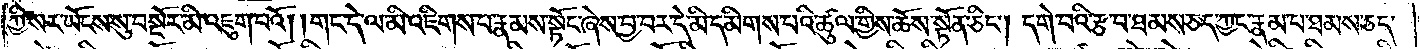ཀྱི་སར་ཡོངས་སུ་བསྔོར་མི་འཇུག་པའོ། །གང་དེ་ལ་མི་འཇིགས་པ་རྣམས་སྟོང་ཞེས་བྱ་བར་དེ་མི་དམིགས་པའི་ཚུལ་གྱིས་ཆོས་སྟོན་ཅིང༌། དགེ་བའི་རྩ་བ་ཐམས་ཅད་ཀྱང་རྣམ་པ་ཐམས་ཅད་
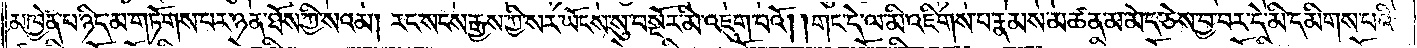མཁྱེན་པ་ཉིད་མ་གཏོགས་པར་ཉན་ཐོས་ཀྱི་སའམ། རང་སངས་རྒྱས་ཀྱི་སར་ཡོངས་སུ་བསྔོར་མི་འཇུག་པའོ། །གང་དེ་ལ་མི་འཇིགས་པ་རྣམས་མཚན་མ་མེད་ཅེས་བྱ་བར་དེ་མི་དམིགས་པའི་
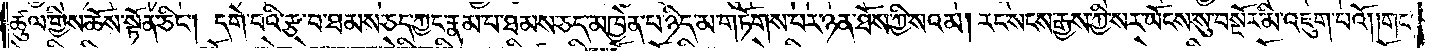ཚུལ་གྱིས་ཆོས་སྟོན་ཅིང༌། དགེ་བའི་རྩ་བ་ཐམས་ཅད་ཀྱང་རྣམ་པ་ཐམས་ཅད་མཁྱེན་པ་ཉིད་མ་གཏོགས་པར་ཉན་ཐོས་ཀྱི་སའམ། རང་སངས་རྒྱས་ཀྱི་སར་ཡོངས་སུ་བསྔོར་མི་འཇུག་པའོ། །གང་
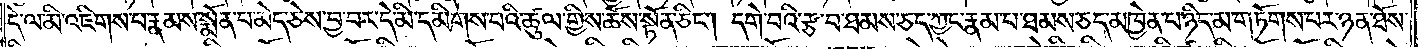དེ་ལ་མི་འཇིགས་པ་རྣམས་སྨོན་པ་མེད་ཅེས་བྱ་བར་དེ་མི་དམིགས་པའི་ཚུལ་གྱིས་ཆོས་སྟོན་ཅིང༌། དགེ་བའི་རྩ་བ་ཐམས་ཅད་ཀྱང་རྣམ་པ་ཐམས་ཅད་མཁྱེན་པ་ཉིད་མ་གཏོགས་པར་ཉན་ཐོས་
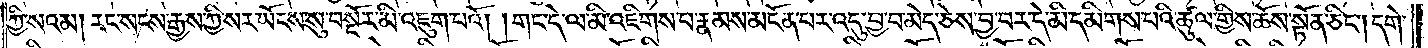ཀྱི་སའམ། རང་སངས་རྒྱས་ཀྱི་སར་ཡོངས་སུ་བསྔོར་མི་འཇུག་པའོ། །གང་དེ་ལ་མི་འཇིགས་པ་རྣམས་མངོན་པར་འདུ་བྱ་བ་མེད་ཅེས་བྱ་བར་དེ་མི་དམིགས་པའི་ཚུལ་གྱིས་ཆོས་སྟོན་ཅིང༌། དགེ་
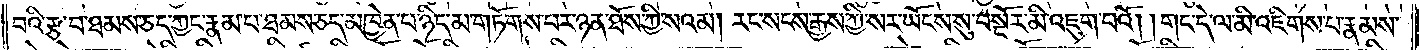བའི་རྩ་བ་ཐམས་ཅད་ཀྱང་རྣམ་པ་ཐམས་ཅད་མཁྱེན་པ་ཉིད་མ་གཏོགས་པར་ཉན་ཐོས་ཀྱི་སའམ། རང་སངས་རྒྱས་ཀྱི་སར་ཡོངས་སུ་བསྔོར་མི་འཇུག་པའོ། །གང་དེ་ལ་མི་འཇིགས་པ་རྣམས་
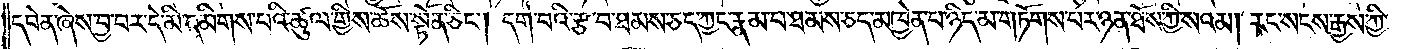དབེན་ཞེས་བྱ་བར་དེ་མི་དམིགས་པའི་ཚུལ་གྱིས་ཆོས་སྟོན་ཅིང༌། དགེ་བའི་རྩ་བ་ཐམས་ཅད་ཀྱང་རྣམ་པ་ཐམས་ཅད་མཁྱེན་པ་ཉིད་མ་གཏོགས་པར་ཉན་ཐོས་ཀྱི་སའམ། རང་སངས་རྒྱས་ཀྱི་
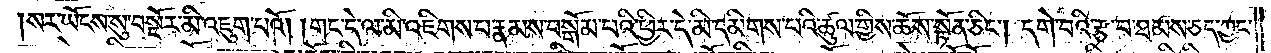སར་ཡོངས་སུ་བསྔོར་མི་འཇུག་པའོ། །གང་དེ་ལ་མི་འཇིགས་པ་རྣམས་བསྒོམ་པའི་ཕྱིར་དེ་མི་དམིགས་པའི་ཚུལ་གྱིས་ཆོས་སྟོན་ཅིང༌། དགེ་བའི་རྩ་བ་ཐམས་ཅད་ཀྱང་
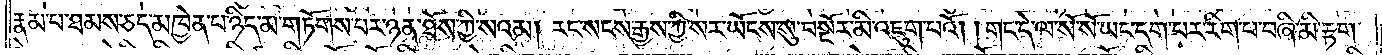རྣམ་པ་ཐམས་ཅད་མཁྱེན་པ་ཉིད་མ་གཏོགས་པར་ཉན་ཐོས་ཀྱི་སའམ། རང་སངས་རྒྱས་ཀྱི་སར་ཡོངས་སུ་བསྔོར་མི་འཇུག་པའོ། །གང་དེ་ལ་སོ་སོ་ཡང་དག་པར་རིག་པ་བཞི་མི་རྟག་
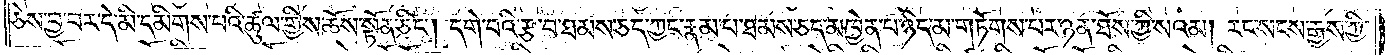ཅེས་བྱ་བར་དེ་མི་དམིགས་པའི་ཚུལ་གྱིས་ཆོས་སྟོན་ཅིང༌། དགེ་བའི་རྩ་བ་ཐམས་ཅད་ཀྱང་རྣམ་པ་ཐམས་ཅད་མཁྱེན་པ་ཉིད་མ་གཏོགས་པར་ཉན་ཐོས་ཀྱི་སའམ། རང་སངས་རྒྱས་ཀྱི་
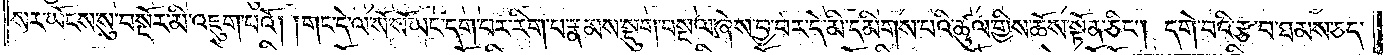སར་ཡོངས་སུ་བསྔོར་མི་འཇུག་པའོ། །གང་དེ་ལ་སོ་སོ་ཡང་དག་པར་རིག་པ་རྣམས་སྡུག་བསྔལ་ཞེས་བྱ་བར་དེ་མི་དམིགས་པའི་ཚུལ་གྱིས་ཆོས་སྟོན་ཅིང༌། དགེ་བའི་རྩ་བ་ཐམས་ཅད་
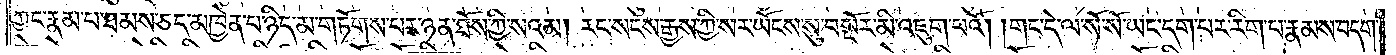ཀྱང་རྣམ་པ་ཐམས་ཅད་མཁྱེན་པ་ཉིད་མ་གཏོགས་པར་ཉན་ཐོས་ཀྱི་སའམ། རང་སངས་རྒྱས་ཀྱི་སར་ཡོངས་སུ་བསྔོར་མི་འཇུག་པའོ། །གང་དེ་ལ་སོ་སོ་ཡང་དག་པར་རིག་པ་རྣམས་བདག་
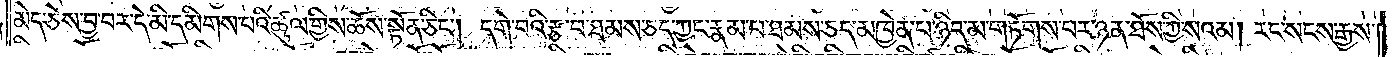མེད་ཅེས་བྱ་བར་དེ་མི་དམིགས་པའི་ཚུལ་གྱིས་ཆོས་སྟོན་ཅིང༌། དགེ་བའི་རྩ་བ་ཐམས་ཅད་ཀྱང་རྣམ་པ་ཐམས་ཅད་མཁྱེན་པ་ཉིད་མ་གཏོགས་པར་ཉན་ཐོས་ཀྱི་སའམ། རང་སངས་རྒྱས་
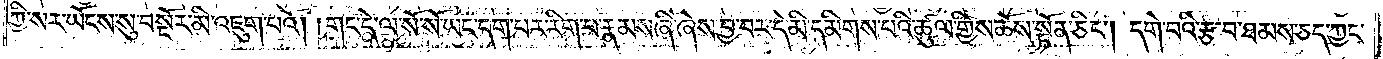ཀྱི་སར་ཡོངས་སུ་བསྔོར་མི་འཇུག་པའོ། །གང་དེ་ལ་སོ་སོ་ཡང་དག་པར་རིག་པ་རྣམས་ཞི་ཞེས་བྱ་བར་དེ་མི་དམིགས་པའི་ཚུལ་གྱིས་ཆོས་སྟོན་ཅིང༌། དགེ་བའི་རྩ་བ་ཐམས་ཅད་ཀྱང་
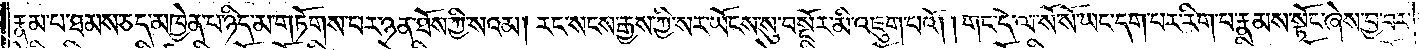རྣམ་པ་ཐམས་ཅད་མཁྱེན་པ་ཉིད་མ་གཏོགས་པར་ཉན་ཐོས་ཀྱི་སའམ། རང་སངས་རྒྱས་ཀྱི་སར་ཡོངས་སུ་བསྔོར་མི་འཇུག་པའོ། །གང་དེ་ལ་སོ་སོ་ཡང་དག་པར་རིག་པ་རྣམས་སྟོང་ཞེས་བྱ་བར་
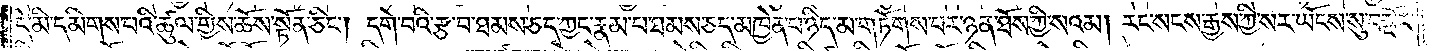དེ་མི་དམིགས་པའི་ཚུལ་གྱིས་ཆོས་སྟོན་ཅིང༌། དགེ་བའི་རྩ་བ་ཐམས་ཅད་ཀྱང་རྣམ་པ་ཐམས་ཅད་མཁྱེན་པ་ཉིད་མ་གཏོགས་པར་ཉན་ཐོས་ཀྱི་སའམ། རང་སངས་རྒྱས་ཀྱི་སར་ཡོངས་སུ་བསྔོར་
